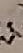ས
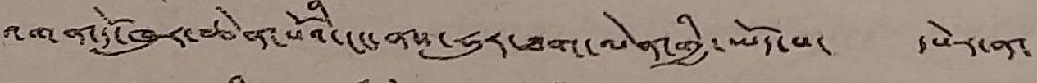འགན་དོ་ཁུར་ཆེན་པོའི་ངང་ནས་ཧུར་ཐག་ལེན་གྱི་ཡོད་པ་ དཔེར་ན་
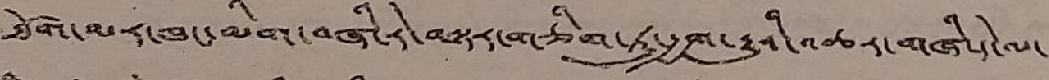ཐོག་མར་ཁང་མིག་བཞི་རེ་བལྟར་གཅིག་ཏུ་རྒྱག་རྒྱུའི་འཆར་གཞི་དེ་ལ་
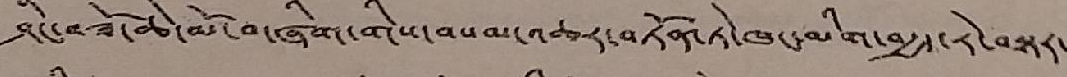ཤིང་བཟོ་ཆེ་མོ་བ་ཞིག་གིས་བསམ་འཆར་བཏོན་ཏེ་ཁང་མིག་བརྒྱད་རེ་བསྟར་
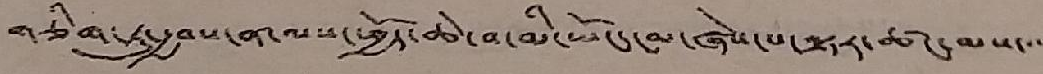གཅིག་ཏུ་རྒྱབས་ན་ལས་ཕྱོད་ཆེ་བ་མི་ཡོང་ངམ་ཞེས་པ་ལྟར་ཚང་མས་་་
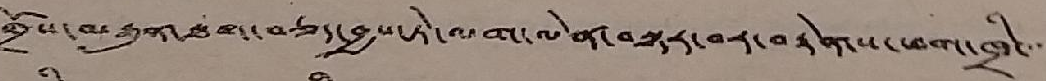གྲོས་མཐུན་ཐག་བཅད་བྱས་ཏེ་ལག་ལེན་བསྟར་བར་བརྟེན་ས་ཕག་ཁྲི་
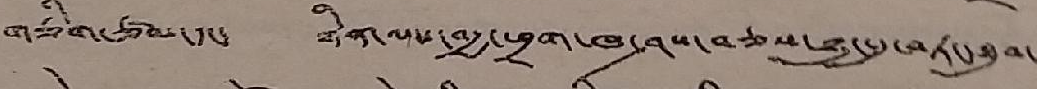གཅིག་ཙམ་དང་ ཉིན་ལས་བརྒྱ་ཕྲག་ཁ་ཤས་བཅས་ཉུང་དུ་བཏང་ཐུབ་
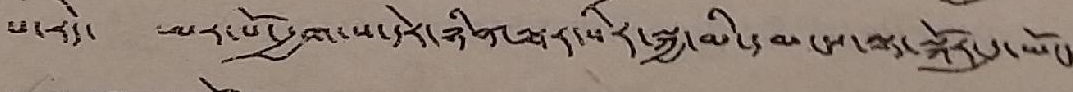པ་རེད་ ཨར་པོ་རྒྱག་ས་དེར་ཉིན་ལྟར་སེར་སྐྱ་མི་དམངས་ལྟ་སྐོར་དུ་ཡོང་
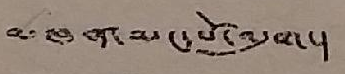མཁན་མང་པོ་འདུག་།
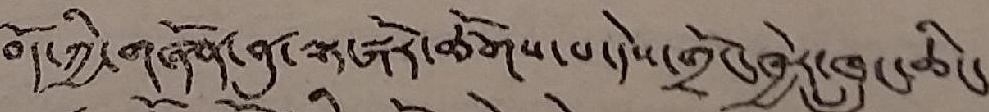བོད་ཀྱི་གཞོན་ནུ་ལྟ་སྐོར་ཚོགས་པ་དེས་གྲོང་ཁྱེར་ཁྲུང་ཆིང་
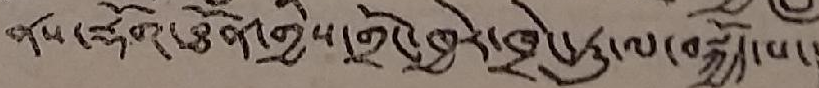ནས་རྡོག་ཐོན་གྱིས་གྲོང་ཁྱེར་ཁྲེང་ཏུ་ལ་བསྐྱོད་པ་།
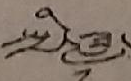སྤྱི་ཟླ་
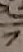༡
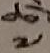༧
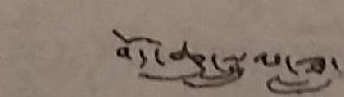བོད་ཆུ་སྦྲུལ་ཟླ་
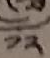༡༢
